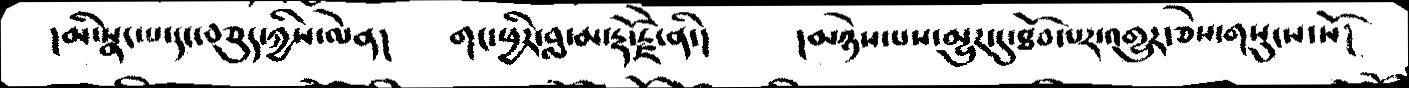།མི་སྣང་པ་དང་བཅུད་ཀྱིས་ལེན།     གང་ཕྱིར་བླ་མ་རྡོ་རྗེ་ནི་།   །མཉེས་པས་མྱུར་དུ་ཐོབ་པར་འགྱུར་ཅེས་གསུངས་སོ།
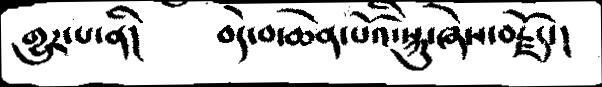གྱུར་པ་ནི།   བདེ་བ་ཆེན་པོའི་སྐུ་ཞེས་བརྗོད་།
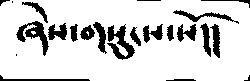ཞེས་གསུངས་སོ།།
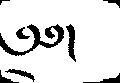༄༅།
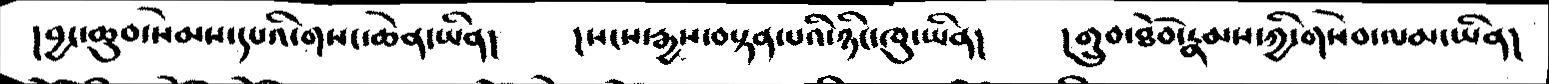།བྱང་ཆུབ་སེམས་དཔའི་གསང་ཆེན་ཡིན།  །སངས་རྒྱས་བསྟན་པའི་ཉིང་ཁུ་ཡིན།    །གྲུབ་ཐོབ་རྣམས་ཀྱི་གསེབ་ལམ་ཡིན།
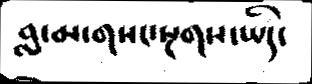བླ་མ་གསང་སྔགས་ཡིད་
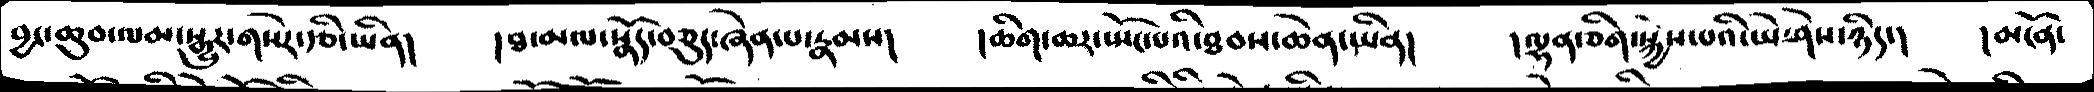བྱང་ཆུབ་ལམ་སྒྱུར་གསེར་རྩི་ཡིན།   །ཐ་མལ་སྣོད་བཅུད་ཞེན་པ་རྣམས།  །ཆིག་ཆར་སྤོང་པའི་ཐབས་ཆེན་ཡིན།   །ལྷན་ཅིག་སྐྱེས་པའི་ཡེ་ཤེས་ཉིད་།   །མངོན་
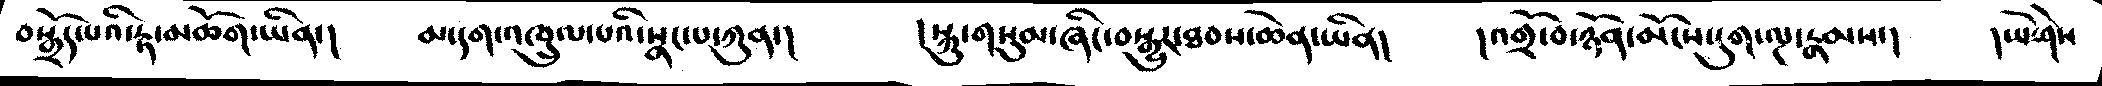བསྒྲོད་པའི་རྟ་མཆོག་ཡིན་།    མ་དག་འཁྲུལ་པའི་སྣང་པ་ཀུན་།  །སྐུ་གསུམ་ཞིང་བསྒྱུར་ཐབས་ཆེན་ཡིན།   །འགྲོ་བ་ཉོན་མོངས་དུག་ལྔ་རྣམས་།   །ཡེ་ཤེས
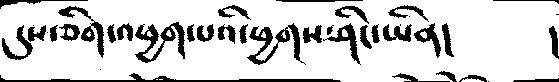དུས་ཅིག་འཕྱག་པའི་ཕྱགས་ཤིང་ཡིན།         །
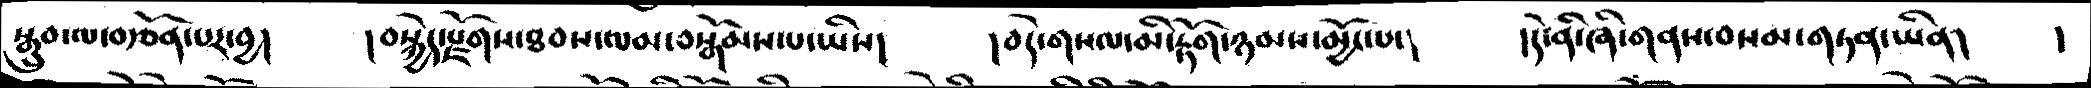སྒྲུབ་ལ་བརྩོན་པར་བྱ།   །བསྐྱེད་རྫོགས་ཐབས་ལམ་བསྒོམས་པ་ཡིས།    །བདེ་གསལ་མི་རྟོག་ཉམས་མྱོང་པ་།    །དེ་ནི་ཞི་གནས་བསམ་གཏན་ཡིན།    །
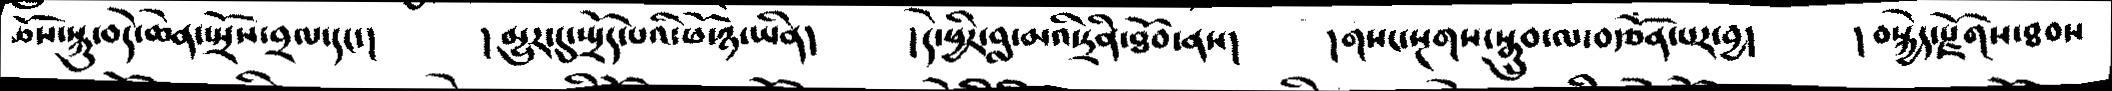ཆོས་སྐུ་བདེ་ཆེན་སྤྲོས་བྲལ་དང་།     ། མྱུར་དུ་སྤྲོད་པའི་ཕོ་ཉ་ཡིན།  །དེ་ཕྱིར་བླ་མའི་དྲིན་ཐོབ་ནས།   །གསང་སྔགས་སྒྲུབ་ལ་བརྩོན་པར་བྱ།   ། བསྐྱེད་རྫོགས་ཐབས
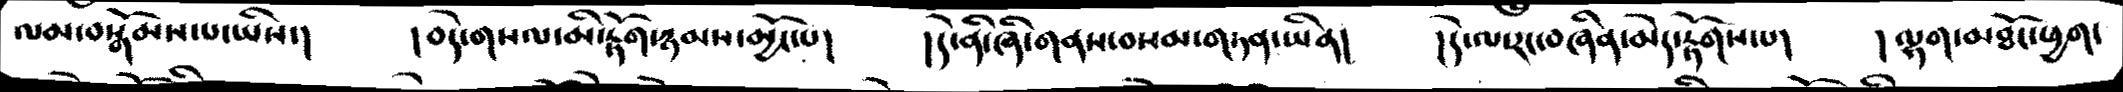ལམ་བསྒོམས་པ་ཡིས་།     །བདེ་གསལ་མི་རྟོག་ཉམས་མྱོང་པ།   །དེ་ནི་ཞི་གནས་བསམ་གཏན་ཡིན།   །དེ་ལ་རང་བཞིན་མེད་རྟོགས་པ།    །ལྷག་མཐོང་ཕྱག་
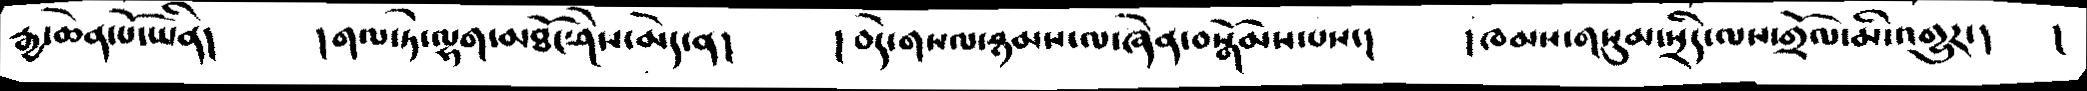རྒྱ་ཆེན་པོ་ཡིན།   །གལ་ཏེ་ལྷག་མཐོང་ཤེས་མེད་ན།    །བདེ་གསལ་ཉམས་ལ་ཞེན་བསྒོམས་པས་།    །ཁམས་གསུམ་སྲིད་ལས་གྲོལ་མི་འགྱུར་།    །
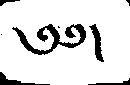༄༅།
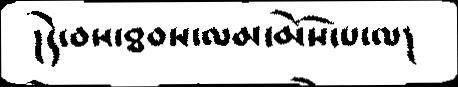།དེ་བས་ཐབས་ལམ་མོས་པ་ལ།
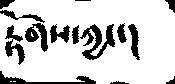རྟོགས་ཀྱང་།
